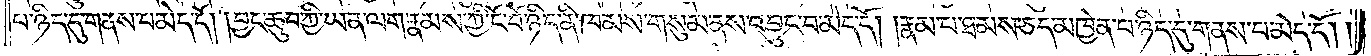པ་ཉིད་དུ་གནས་པ་མེད་དོ། །བྱང་ཆུབ་ཀྱི་ཡན་ལག་རྣམས་ཀྱི་ངོ་བོ་ཉིད་ནི་ཁམས་གསུམ་ནས་འབྱུང་བ་མེད་དོ། །རྣམ་པ་ཐམས་ཅད་མཁྱེན་པ་ཉིད་དུ་གནས་པ་མེད་དོ། །
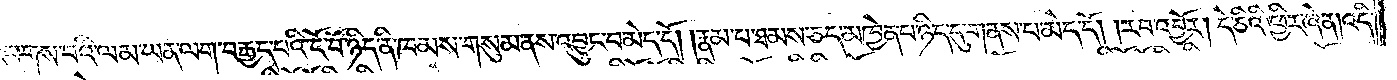འཕགས་པའི་ལམ་ཡན་ལག་བརྒྱད་པའི་ངོ་བོ་ཉིད་ནི་ཁམས་གསུམ་ནས་འབྱུང་བ་མེད་དོ། །རྣམ་པ་ཐམས་ཅད་མཁྱེན་པ་ཉིད་དུ་གནས་པ་མེད་དོ། །རབ་འབྱོར། དེ་ཅིའི་ཕྱིར་ཞེ་ན། འདི་
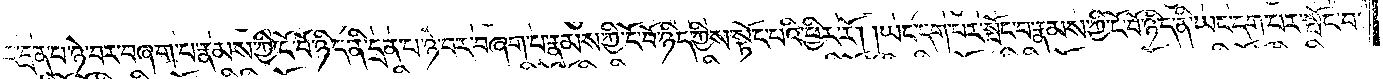ལྟར་དྲན་པ་ཉེ་བར་བཞག་པ་རྣམས་ཀྱི་ངོ་བོ་ཉིད་ནི་དྲན་པ་ཉེ་བར་བཞག་པ་རྣམས་ཀྱི་ངོ་བོ་ཉིད་ཀྱིས་སྟོང་པའི་ཕྱིར་རོ། །ཡང་དག་པར་སྤོང་བ་རྣམས་ཀྱི་ངོ་བོ་ཉིད་ནི་ཡང་དག་པར་སྤོང་བ་
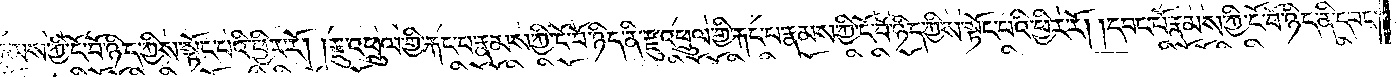རྣམས་ཀྱི་ངོ་བོ་ཉིད་ཀྱིས་སྟོང་པའི་ཕྱིར་རོ། །རྫུ་འཕྲུལ་གྱི་རྐང་པ་རྣམས་ཀྱི་ངོ་བོ་ཉིད་ནི་རྫུ་འཕྲུལ་གྱི་རྐང་པ་རྣམས་ཀྱི་ངོ་བོ་ཉིད་ཀྱིས་སྟོང་པའི་ཕྱིར་རོ། །དབང་པོ་རྣམས་ཀྱི་ངོ་བོ་ཉིད་ནི་དབང་
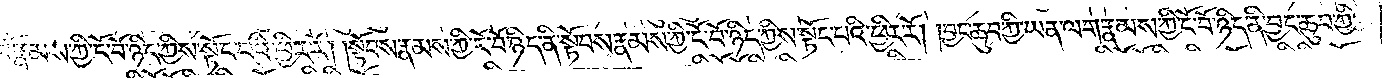པོ་རྣམས་ཀྱི་ངོ་བོ་ཉིད་ཀྱིས་སྟོང་པའི་ཕྱིར་རོ། །སྟོབས་རྣམས་ཀྱི་ངོ་བོ་ཉིད་ནི་སྟོབས་རྣམས་ཀྱི་ངོ་བོ་ཉིད་ཀྱིས་སྟོང་པའི་ཕྱིར་རོ། །བྱང་ཆུབ་ཀྱི་ཡན་ལག་རྣམས་ཀྱི་ངོ་བོ་ཉིད་ནི་བྱང་ཆུབ་ཀྱི་
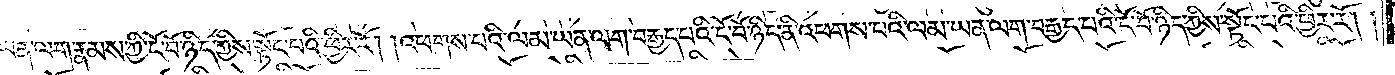ཡན་ལག་རྣམས་ཀྱི་ངོ་བོ་ཉིད་ཀྱིས་སྟོང་པའི་ཕྱིར་རོ། །འཕགས་པའི་ལམ་ཡན་ལག་བརྒྱད་པའི་ངོ་བོ་ཉིད་ནི་འཕགས་པའི་ལམ་ཡན་ལག་བརྒྱད་པའི་ངོ་བོ་ཉིད་ཀྱིས་སྟོང་པའི་ཕྱིར་རོ། །
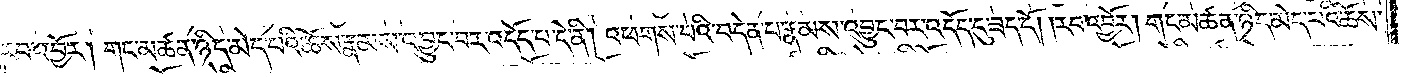རབ་འབྱོར། གང་མཚན་ཉིད་མེད་པའི་ཆོས་རྣམས་འབྱུང་བར་འདོད་པ་དེ་ནི། འཕགས་པའི་བདེན་པ་རྣམས་འབྱུང་བར་འདོད་དུ་ཟད་དོ། །རབ་འབྱོར། གང་མཚན་ཉིད་མེད་པའི་ཆོས་
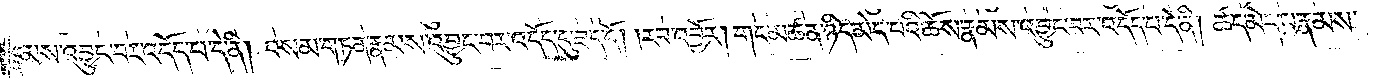རྣམས་འབྱུང་བར་འདོད་པ་དེ་ནི། བསམ་གཏན་རྣམས་འབྱུང་བར་འདོད་དུ་ཟད་དོ། །རབ་འབྱོར། གང་མཚན་ཉིད་མེད་པའི་ཆོས་རྣམས་འབྱུང་བར་འདོད་པ་དེ་ནི། ཚད་མེད་པ་རྣམས་
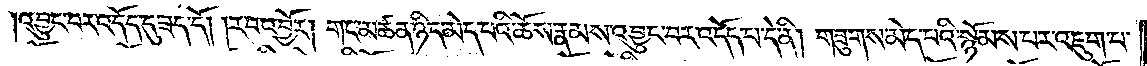འབྱུང་བར་འདོད་དུ་ཟད་དོ། །རབ་འབྱོར། གང་མཚན་ཉིད་མེད་པའི་ཆོས་རྣམས་འབྱུང་བར་འདོད་པ་དེ་ནི། གཟུགས་མེད་པའི་སྙོམས་པར་འཇུག་པ་
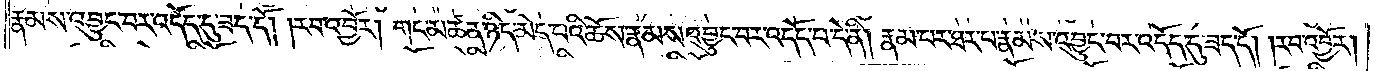རྣམས་འབྱུང་བར་འདོད་དུ་ཟད་དོ། །རབ་འབྱོར། གང་མཚན་ཉིད་མེད་པའི་ཆོས་རྣམས་འབྱུང་བར་འདོད་པ་དེ་ནི། རྣམ་པར་ཐར་པ་རྣམས་འབྱུང་བར་འདོད་དུ་ཟད་དོ། །རབ་འབྱོར།
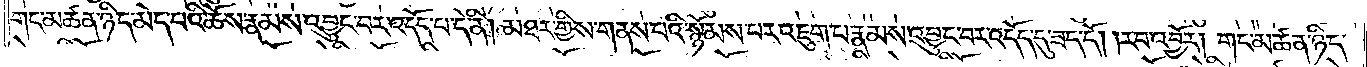གང་མཚན་ཉིད་མེད་པའི་ཆོས་རྣམས་འབྱུང་བར་འདོད་པ་དེ་ནི། མཐར་གྱིས་གནས་པའི་སྙོམས་པར་འཇུག་པ་རྣམས་འབྱུང་བར་འདོད་དུ་ཟད་དོ། །རབ་འབྱོར། གང་མཚན་ཉིད་
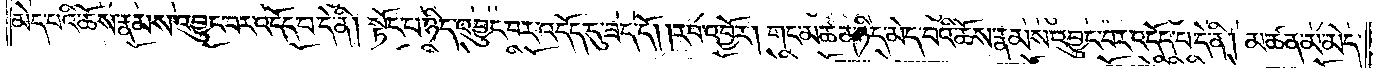མེད་པའི་ཆོས་རྣམས་འབྱུང་བར་འདོད་པ་དེ་ནི། སྟོང་པ་ཉིད་འབྱུང་བར་འདོད་དུ་ཟད་དོ། །རབ་འབྱོར། གང་མཚན་ཉིད་མེད་པའི་ཆོས་རྣམས་འབྱུང་བར་འདོད་པ་དེ་ནི། མཚན་མ་མེད་
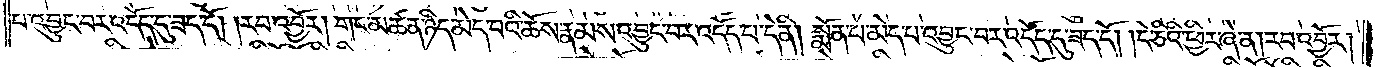པ་འབྱུང་བར་འདོད་དུ་ཟད་དོ། །རབ་འབྱོར། གང་མཚན་ཉིད་མེད་པའི་ཆོས་རྣམས་འབྱུང་བར་འདོད་པ་དེ་ནི། སྨོན་པ་མེད་པ་འབྱུང་བར་འདོད་དུ་ཟད་དོ། །དེ་ཅིའི་ཕྱིར་ཞེ་ན། རབ་འབྱོར།
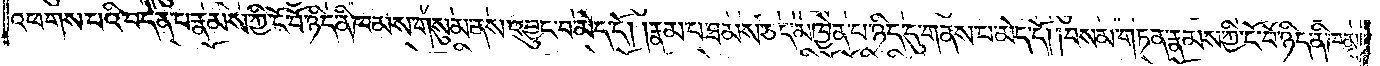འཕགས་པའི་བདེན་པ་རྣམས་ཀྱི་ངོ་བོ་ཉིད་ནི་ཁམས་གསུམ་ནས་འབྱུང་བ་མེད་དོ། །རྣམ་པ་ཐམས་ཅད་མཁྱེན་པ་ཉིད་དུ་གནས་པ་མེད་དོ། །བསམ་གཏན་རྣམས་ཀྱི་ངོ་བོ་ཉིད་ནི་ཁམས་
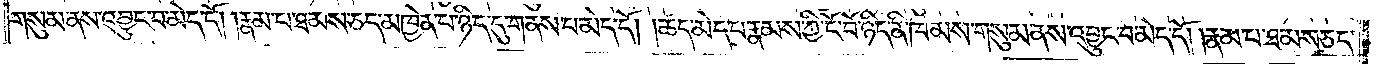གསུམ་ནས་འབྱུང་བ་མེད་དོ། །རྣམ་པ་ཐམས་ཅད་མཁྱེན་པ་ཉིད་དུ་གནས་པ་མེད་དོ། །ཚད་མེད་པ་རྣམས་ཀྱི་ངོ་བོ་ཉིད་ནི་ཁམས་གསུམ་ནས་འབྱུང་བ་མེད་དོ། །རྣམ་པ་ཐམས་ཅད་
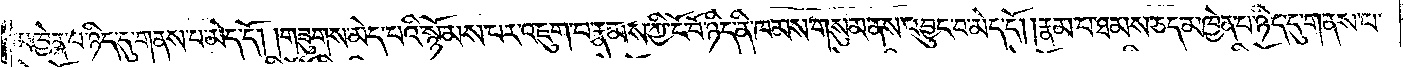མཁྱེན་པ་ཉིད་དུ་གནས་པ་མེད་དོ། །གཟུགས་མེད་པའི་སྙོམས་པར་འཇུག་པ་རྣམས་ཀྱི་ངོ་བོ་ཉིད་ནི་ཁམས་གསུམ་ནས་འབྱུང་བ་མེད་དོ། །རྣམ་པ་ཐམས་ཅད་མཁྱེན་པ་ཉིད་དུ་གནས་པ་
